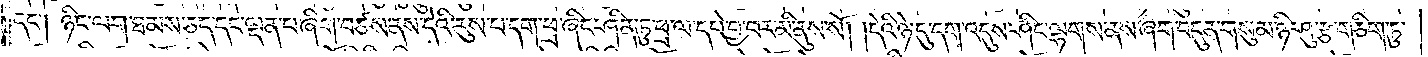དང༌། ཉིང་ལག་ཐམས་ཅད་དང་ལྡན་པ་ཞིག་བཙས་ནས་དེའི་རུས་པ་དག་ཕྲ་ཞིང་ཤིན་ཏུ་ཕྲ་ལ་དཔེ་བྱ་བར་མི་ནུས་སོ། །དེའི་ཉེ་དུ་དག་འདུས་ཤིང་ལྷགས་ནས་ཞག་བདུན་གསུམ་ཉི་ཤུ་རྩ་གཅིག་ཏུ་
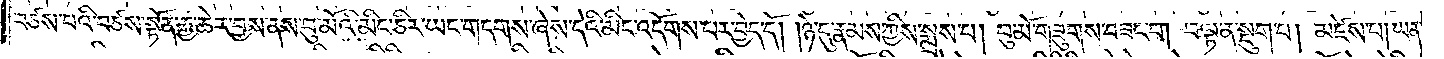བཙས་པའི་བཙས་སྟོན་རྒྱ་ཆེར་བྱས་ནས་བུ་མོའི་མིང་ཅིར་ཡང་གདགས་ཞེས་དེའི་མིང་འདོགས་པར་བྱེད་དོ། །ཉེ་དུ་རྣམས་ཀྱིས་སྨྲས་པ། བུ་མོ་གཟུགས་བཟང་བ། བལྟ་ན་སྡུག་པ། མཛེས་པ། ཡན་
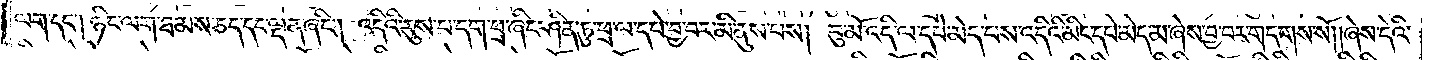ལག་དང༌། ཉིང་ལག་ཐམས་ཅད་དང་ལྡན་ཞིང༌། འདིའི་རུས་པ་དག་ཕྲ་ཞིང་ཤིན་ཏུ་ཕྲ་ལ་དཔེ་བྱ་བར་མི་ནུས་པས། བུ་མོ་འདི་ལ་དཔེ་མེད་པས་འདིའི་མིང་དཔེ་མེད་མ་ཞེས་བྱ་བར་གདགས་སོ། །ཞེས་དེའི་
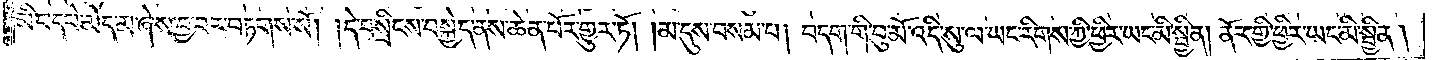མིང་དཔེ་མེད་མ་ཞེས་བྱ་བར་བཏགས་སོ། །དེ་བསྲིངས་བསྐྱེད་ནས་ཆེན་པོར་གྱུར་ཏོ། །མ་དུས་བསམ་པ། བདག་གི་བུ་མོ་འདི་སུ་ལ་ཡང་རིགས་ཀྱི་ཕྱིར་ཡང་མི་སྦྱིན། ནོར་གྱི་ཕྱིར་ཡང་མི་སྦྱིན་།
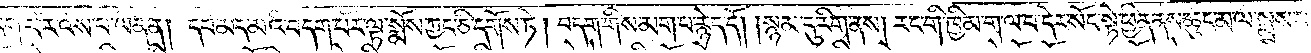བདག་པོར་འོས་པ་ཡིན་ན། དཔེ་མེད་མའི་བདག་པོར་ལྟ་སྨོས་ཀྱང་ཅི་དགོས་ཏེ། བདག་གིས་མག་པ་རྙེད་དོ། །སྙམ་དུ་རིག་ནས། རང་གི་ཁྱིམ་ག་ལ་བ་དེར་སོང་སྟེ་ཕྱིན་ནས་ཆུང་མ་ལ་སྨྲས་པ། བཟང་
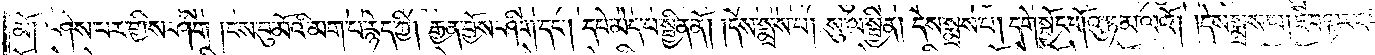མོ། ཤེས་པར་གྱིས་ཤིག །ངས་བུ་མོའི་མག་པ་རྙེད་ཀྱི། རྒྱན་བྱོས་ཤིག་དང༌། དཔེ་མེད་པ་སྦྱིན་ནོ། །དེས་སྨྲས་པ། སུ་ལ་སྦྱིན། དེས་སྨྲས་པ། དགེ་སྦྱོང་གོའུ་ཏ་མ་ལའོ། དེས་སྨྲས་པ། །ཇེ་བལྟར་འདོང་
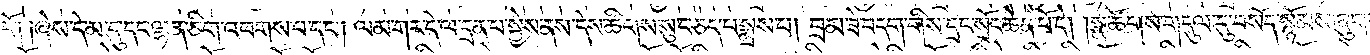ངོ༑ ༑ཞེས་དེ་མ་དུ་དང་ལྷན་ཅིག་འཕགས་པ་དང༌། ལམ་གར་དེ་ལ་དྲན་པ་སྐྱེས་ནས་དེས་ཚིགས་སུ་བཅད་པ་སྨྲས་པ། བྲམ་ཟེ་བདག་གིས་དྲང་སྲོང་ཆེན་པོ་དེ། སྣ་ཚོགས་གདུལ་དུ་བསོད་སྙོམས་ཞུགས་
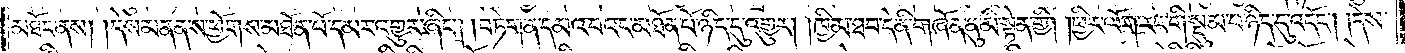མཐོང་ནས། །དེས་མནན་ས་ཕྱོགས་མཐོན་པོ་དམར་འགྱུར་ཞིང༌། བཏེག་ན་དམའ་བའང་མཐོན་པོ་ཉིད་དུ་འགྱུར། །ཁྱིམ་ཐབ་དེ་ནི་གཞོན་ནུ་མི་སྟེན་གྱི། །ཕྱིར་ལོག་རང་གི་སྡུམ་པ་ཉིད་དུ་འདོང༌། །དེས་
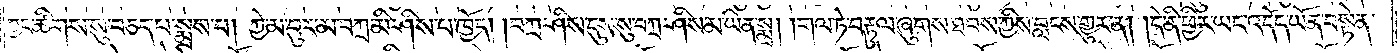ཀྱང་ཚིགས་སུ་བཅད་པ་སྨྲས་པ། ཀྱེ་མ་བུར་མ་བཀྲ་མི་ཤིས་པ་ཁྱོད། །བཀྲ་ཤིས་དུས་སུ་བཀྲ་ཤིས་མ་ཡིན་སྨྲ། །གལ་ཏེ་བརྟུལ་ཞུགས་ཐབས་ཀྱིས་བླངས་གྱུར་ན། །དེ་ནི་ཕྱིར་ཡང་འདོད་ཡོན་བསྟེན་
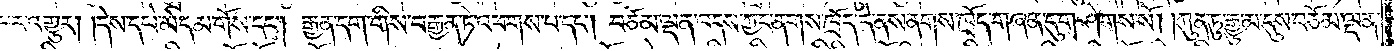པར་འགྱུར། །དེས་དཔེ་མེད་མ་གོས་དང༌། རྒྱན་དག་གིས་བརྒྱན་ཏེ་འཕགས་པ་དང༌། བཅོམ་ལྡན་འདས་ཀྱང་ནགས་ཁྲོད་དེ་ནས་ནགས་ཁྲོད་གཞན་དུ་གཤེགས་སོ། །ཀུན་ཏུ་རྒྱུ་མ་དུས་བཅོམ་ལྡན་
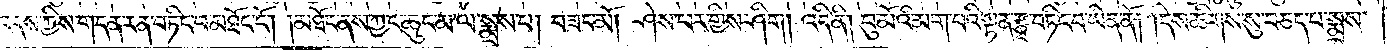འདས་ཀྱིས་གདན་རན་བཏིང་བ་མཐོང་ངོ༌། །མཐོང་ནས་ཀྱང་ཆུང་མ་ལ་སྨྲས་པ། བཟང་མོ། ཤེས་པར་གྱིས་ཤིག། འདི་ནི། བུ་མོའི་མག་པའི་སྟན་རྩྭ་བཏིང་བ་ཡིན་ནོ། །དེས་ཚིགས་སུ་བཅད་པ་སྨྲས་
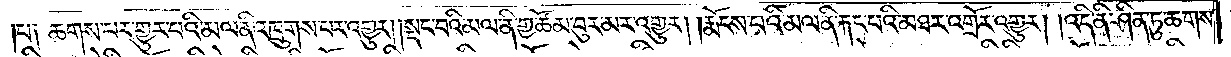པ༑ ཆགས་པར་གྱུར་པའི་མལ་ནི་འཁྲུགས་པར་འགྱུར། །སྡང་བའི་མལ་ནི་གྱ་ཚོམ་བུར་མར་འགྱུར། །རྨོངས་པའི་མལ་ནི་རྐང་པའི་མཐར་འགྲོར་འགྱུར། །འདི་ནི་ཤིན་ཏུ་ཆགས་
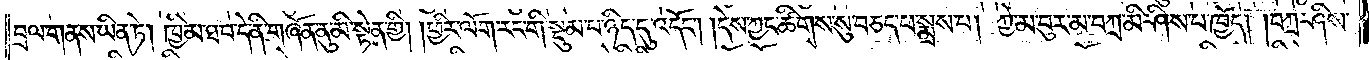བྲལ་གནས་ཡིན་ཏེ། ཁྱིམ་ཐབ་དེ་ནི་གཞོན་ནུ་མི་སྟེན་གྱི། །ཕྱིར་ལོག་རང་གི་སྡུམ་པ་ཉིད་དུ་འདོང༌། །དེས་ཀྱང་ཚིགས་སུ་བཅད་པ་སྨྲས་པ། ཀྱེ་མ་བུར་མ་བཀྲ་མི་ཤིས་པ་ཁྱོད། །བཀྲ་ཤིས་
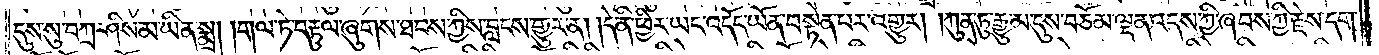དུས་སུ་བཀྲ་ཤིས་མ་ཡིན་སྨྲ། །གལ་ཏེ་བརྟུལ་ཞུགས་ཐབས་ཀྱིས་བླངས་གྱུར་ན། །དེ་ནི་ཕྱིར་ཡང་འདོད་ཡོན་བསྟེན་པར་འགྱུར། །ཀུན་ཏུ་རྒྱུ་མ་དུས་བཅོམ་ལྡན་འདས་ཀྱི་ཞབས་ཀྱི་རྗེས་དག་
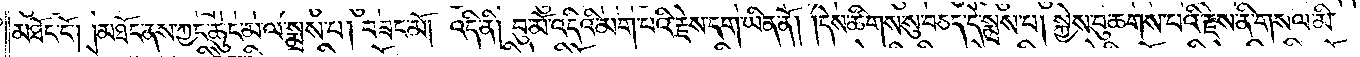མཐོང་ངོ༌། །མཐོང་ནས་ཀྱང་ཆུང་མ་ལ་སྨྲས་པ། བཟང་མོ། འདི་ནི། བུ་མོ་འདིའི་མག་པའི་རྗེས་དག་ཡིན་ནོ། །དེས་ཚིགས་སུ་བཅད་དེ་སྨྲས་པ། སྐྱེས་བུ་ཆགས་པའི་རྗེས་ནི་གསལ་མི་
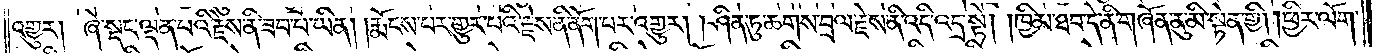འགྱུར། ཞེ་སྡང་ལྡན་པའི་རྗེས་ནི་ཟབ་པ་ཡིན། །རྨོངས་པར་གྱུར་པའི་རྗེས་ནི་ནོག་པར་འགྱུར། །ཤིན་ཏུ་ཆགས་བྲལ་རྗེས་ནི་འདི་འདྲ་སྟེ། །ཁྱིམ་ཐབ་དེ་ནི་གཞོན་ནུ་མི་སྟེན་གྱི། །ཕྱིར་ལོག་
